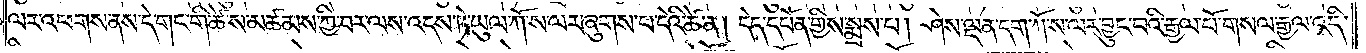ལར་འཕགས་ནས་དེ་གང་གི་ཚེ་ས་མཚམས་ཀྱི་བར་ལས་འདས་ཏེ་ཡུལ་ཀོ་ས་ལར་ཞུགས་པ་དེའི་ཚེ་ན། དེད་དཔོན་གྱིས་སྨྲས་པ། ཤེས་ལྡན་དག་ཀོ་ས་ལར་བྱུང་བའི་རྒྱལ་པོ་གསལ་རྒྱལ་འདི་
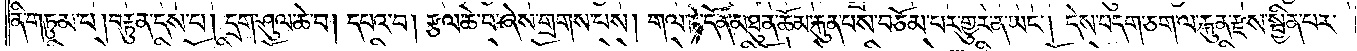ནི་གཏུམ་པ། བརྟུན་དས་པ། དྲག་ཤུལ་ཆེ་བ། དཔའ་བ། རྩལ་ཆེ་བ་ཞེས་གྲགས་པས། གལ་ཏེ་དོན་མཐུན་ཆོམ་རྐུན་པས་བཅོམ་པར་གྱུར་ན་ཡང༌། དེས་བདག་ཅག་ལ་རྐུན་རྫས་སྦྱིན་པར་
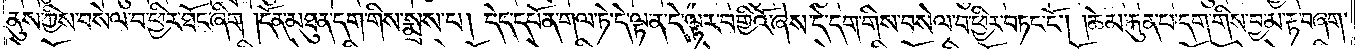ནུས་ཀྱིས་བསེལ་བ་ཕྱིར་ཐོང་ཞིག །དོན་མཐུན་དག་གིས་སྨྲས་པ། དེད་དཔོན་གལ་ཏེ་དེ་ལྟ་ན་དེ་ལྟར་བགྱིའོ་ཞེས་དེ་དག་གིས་བསེལ་བ་ཕྱིར་བཏང་ངོ༌། །ཆོམ་རྐུན་པ་དག་གིས་བྱ་མ་རྟ་བཞག་
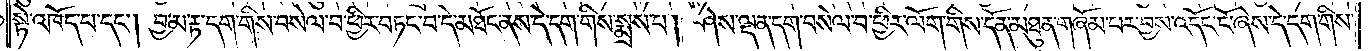སྟེ་འཁོད་པ་དང༌། བྱ་མ་རྟ་དག་གིས་བསེལ་བ་ཕྱིར་བཏང་བ་དེ་མཐོང་ནས་དེ་དག་གིས་སྨྲས་པ། ཤེས་ལྡན་དག་བསེལ་བ་ཕྱིར་ལོག་གིས་དོན་མཐུན་གཞོམ་པར་བྱས་འདོང་ངོ་ཞེས་དེ་དག་གིས་
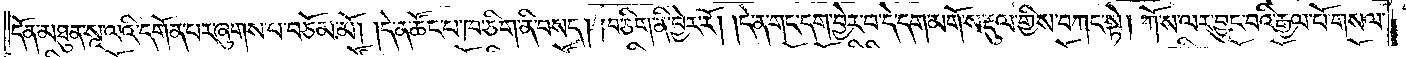དོན་མཐུན་སཱ་ལའི་དགོན་པར་ཞུགས་པ་བཅོམ་མོ། །དེ་ན་ཚོང་པ་ཁ་ཅིག་ནི་བསད། ཁ་ཅིག་ནི་བྱེར་རོ། །དེ་ན་གང་དག་བྱེར་བ་དེ་དག་མགོ་ས་རྡུལ་གྱིས་བཀང་སྟེ། ཀོ་ས་ལར་བྱུང་བའི་རྒྱལ་པོ་གསལ་
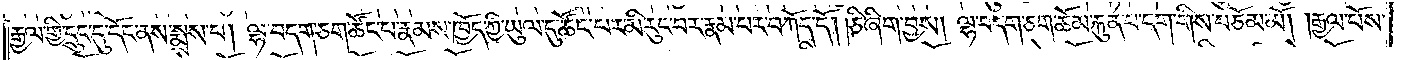རྒྱལ་གྱི་དྲུང་དུ་དོང་ནས་སྨྲས་པ། ལྷ་བདག་ཅག་ཚོང་པ་རྣམས་ཁྱོད་ཀྱི་ཡུལ་དུ་ཚོང་པར་མི་རུང་བར་རྣམ་པར་བཀོད་དོ། །ཅི་ཞིག་བྱས། ལྷ་བདག་ཅག་ཆོམ་རྐུན་པ་དག་གིས་བཅོམ་མོ། །རྒྱལ་པོས་
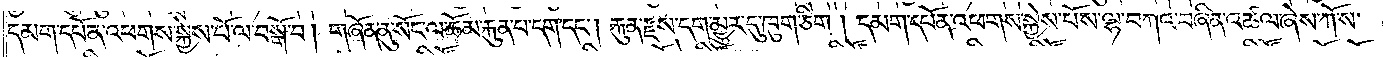དམག་དཔོན་འཕགས་སྐྱེས་པོ་ལ་བསྒོ་བ། གཞོན་ནུ་སོང་ལ་ཆོམ་རྐུན་པ་དག་དང༌། རྐུན་རྫས་དག་མྱུར་དུ་ཁུག་ཅིག །དམག་དཔོན་འཕགས་སྐྱེས་པོས་ལྷ་བཀའ་བཞིན་འཚལ་ཞེས་ཀོ་ས་
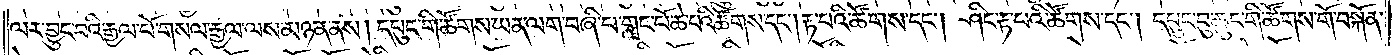ལར་བྱུང་བའི་རྒྱལ་པོ་གསལ་རྒྱལ་ལས་མཉན་ནས། དཔུང་གི་ཚོགས་ཡན་ལག་བཞི་པ་གླང་པོ་ཆེ་པའི་ཚོགས་དང༌། རྟ་པའི་ཚོགས་དང༌། ཤིང་རྟ་པའི་ཚོགས་དང༌། དཔུང་བུ་ཆུང་གི་ཚོགས་གོ་བསྐོན་
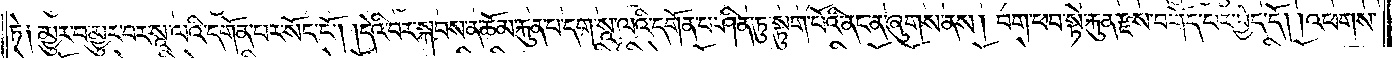ཏེ༑ མྱུར་བ་མྱུར་བར་སཱ་ལའི་དགོན་པར་སོང་ངོ༌། །དེའི་བར་སྐབས་ན་ཆོམ་རྐུན་པ་དག་སཱ་ལའི་དགོན་པ་ཤིན་ཏུ་སྟུག་པོའི་ནང་ན་ཞུགས་ནས། བག་ཕབ་སྟེ་རྐུན་རྫས་བགོད་པར་བྱེད་དོ། །འཕགས་
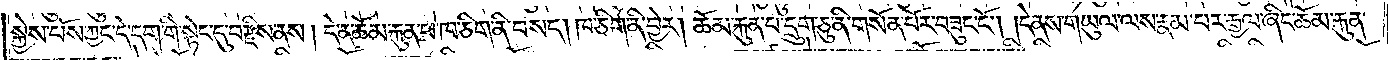སྐྱེས་པོས་ཀྱང་དེ་དག་གི་སྟེང་དུ་བརྫིས་ནས། དེ་ན་ཆོམ་རྐུན་པ་ཁ་ཅིག་ནི་བསད། ཁ་ཅིག་ནི་བྱེར། ཆོམ་རྐུན་པ་དྲུག་ཅུ་ནི་གསོན་པོར་བཟུང་ངོ༌། །དེ་ནས་གཡུལ་ལས་རྣམ་པར་རྒྱལ་ཞིང་ཆོམ་རྐུན་
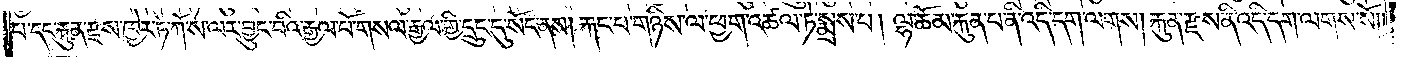པ་དང་རྐུན་རྫས་ཁྱེར་ཏེ་ཀོ་ས་ལར་བྱུང་བའི་རྒྱལ་པོ་གསལ་རྒྱལ་གྱི་དྲུང་དུ་སོང་ནས། རྐང་པ་གཉིས་ལ་ཕྱག་འཚལ་ཏེ་སྨྲས་པ། ལྷ་ཆོམ་རྐུན་པ་ནི་འདི་དག་ལགས། རྐུན་རྫས་ནི་འདི་དག་ལགས་སོ༎
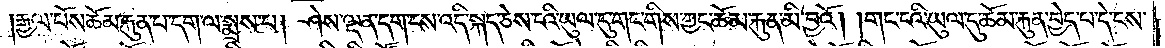།རྒྱལ་པོས་ཆོམ་རྐུན་པ་དག་ལ་སྨྲས་པ། ཤེས་ལྡན་དག་ངས་འདི་སྐད་ཅེས་ངའི་ཡུལ་དུ་གང་གིས་ཀྱང་ཆོམ་རྐུན་མི་བྱའོ། །གང་ངའི་ཡུལ་དུ་ཆོམ་རྐུན་བྱེད་པ་དེ་ངས་
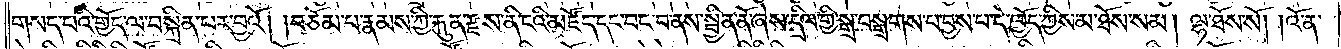གསད་པའི་གྱོད་ལ་བསྐྲིན་པར་བྱའོ། །བཅོམ་པ་རྣམས་ཀྱི་རྐུན་རྫས་ནི་ངའི་མཛོད་དང་བང་བ་ནས་སྦྱིན་ནོ་ཞེས་དྲིལ་གྱི་སྒྲ་བསྒྲགས་པ་བྱས་པ་དེ་ཁྱོད་ཀྱིས་མ་ཐོས་སམ། ལྷ་ཐོས་སོ། །འོ་ན་
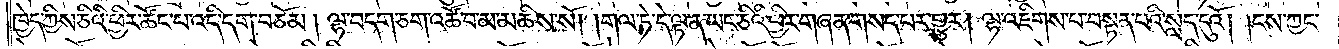ཁྱེད་ཀྱིས་ཅིའི་ཕྱིར་ཚོང་པ་འདི་དག་བཅོམ། ལྷ་བདག་ཅག་འཚོ་བ་མ་མཆིས་སོ། །གལ་ཏེ་དེ་ལྟ་ན་ཡང་ཅིའི་ཕྱིར་གཞན་གསད་པར་གྱུར། ལྷ་འཇིགས་པ་བསྟན་པའི་སླད་དུའོ། །ངས་ཀྱང་
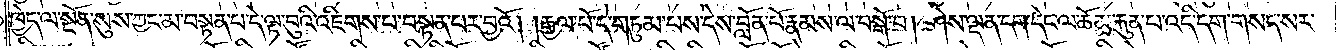ཁྱེད་ལ་སྔོན་སུས་ཀྱང་མ་བསྟན་པ་དེ་ལྟ་བུའི་འཇིགས་པ་བསྟན་པར་བྱའོ། །རྒྱལ་པོ་དེ་གཏུམ་པས་དེས་བློན་པོ་རྣམས་ལ་བསྒོ་བ། ཤེས་ལྡན་དག་དེང་ལ་ཆོམ་རྐུན་པ་འདི་དག་གསད་སར་
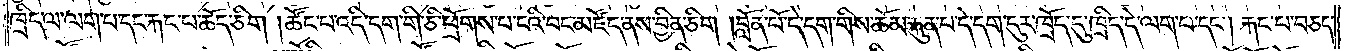ཁྲིད་ལ་ལག་པ་དང་རྐང་པ་ཆོད་ཅིག །ཚོང་པ་འདི་དག་གི་ཅི་ཕྲོགས་པ་ངའི་བང་མཛོད་ནས་བྱིན་ཅིག །བློན་པོ་དེ་དག་གིས་ཆོམ་རྐུན་པ་དེ་དག་དུར་ཁྲོད་དུ་ཁྲིད་དེ་ལག་པ་དང༌། རྐང་པ་བཅད་
